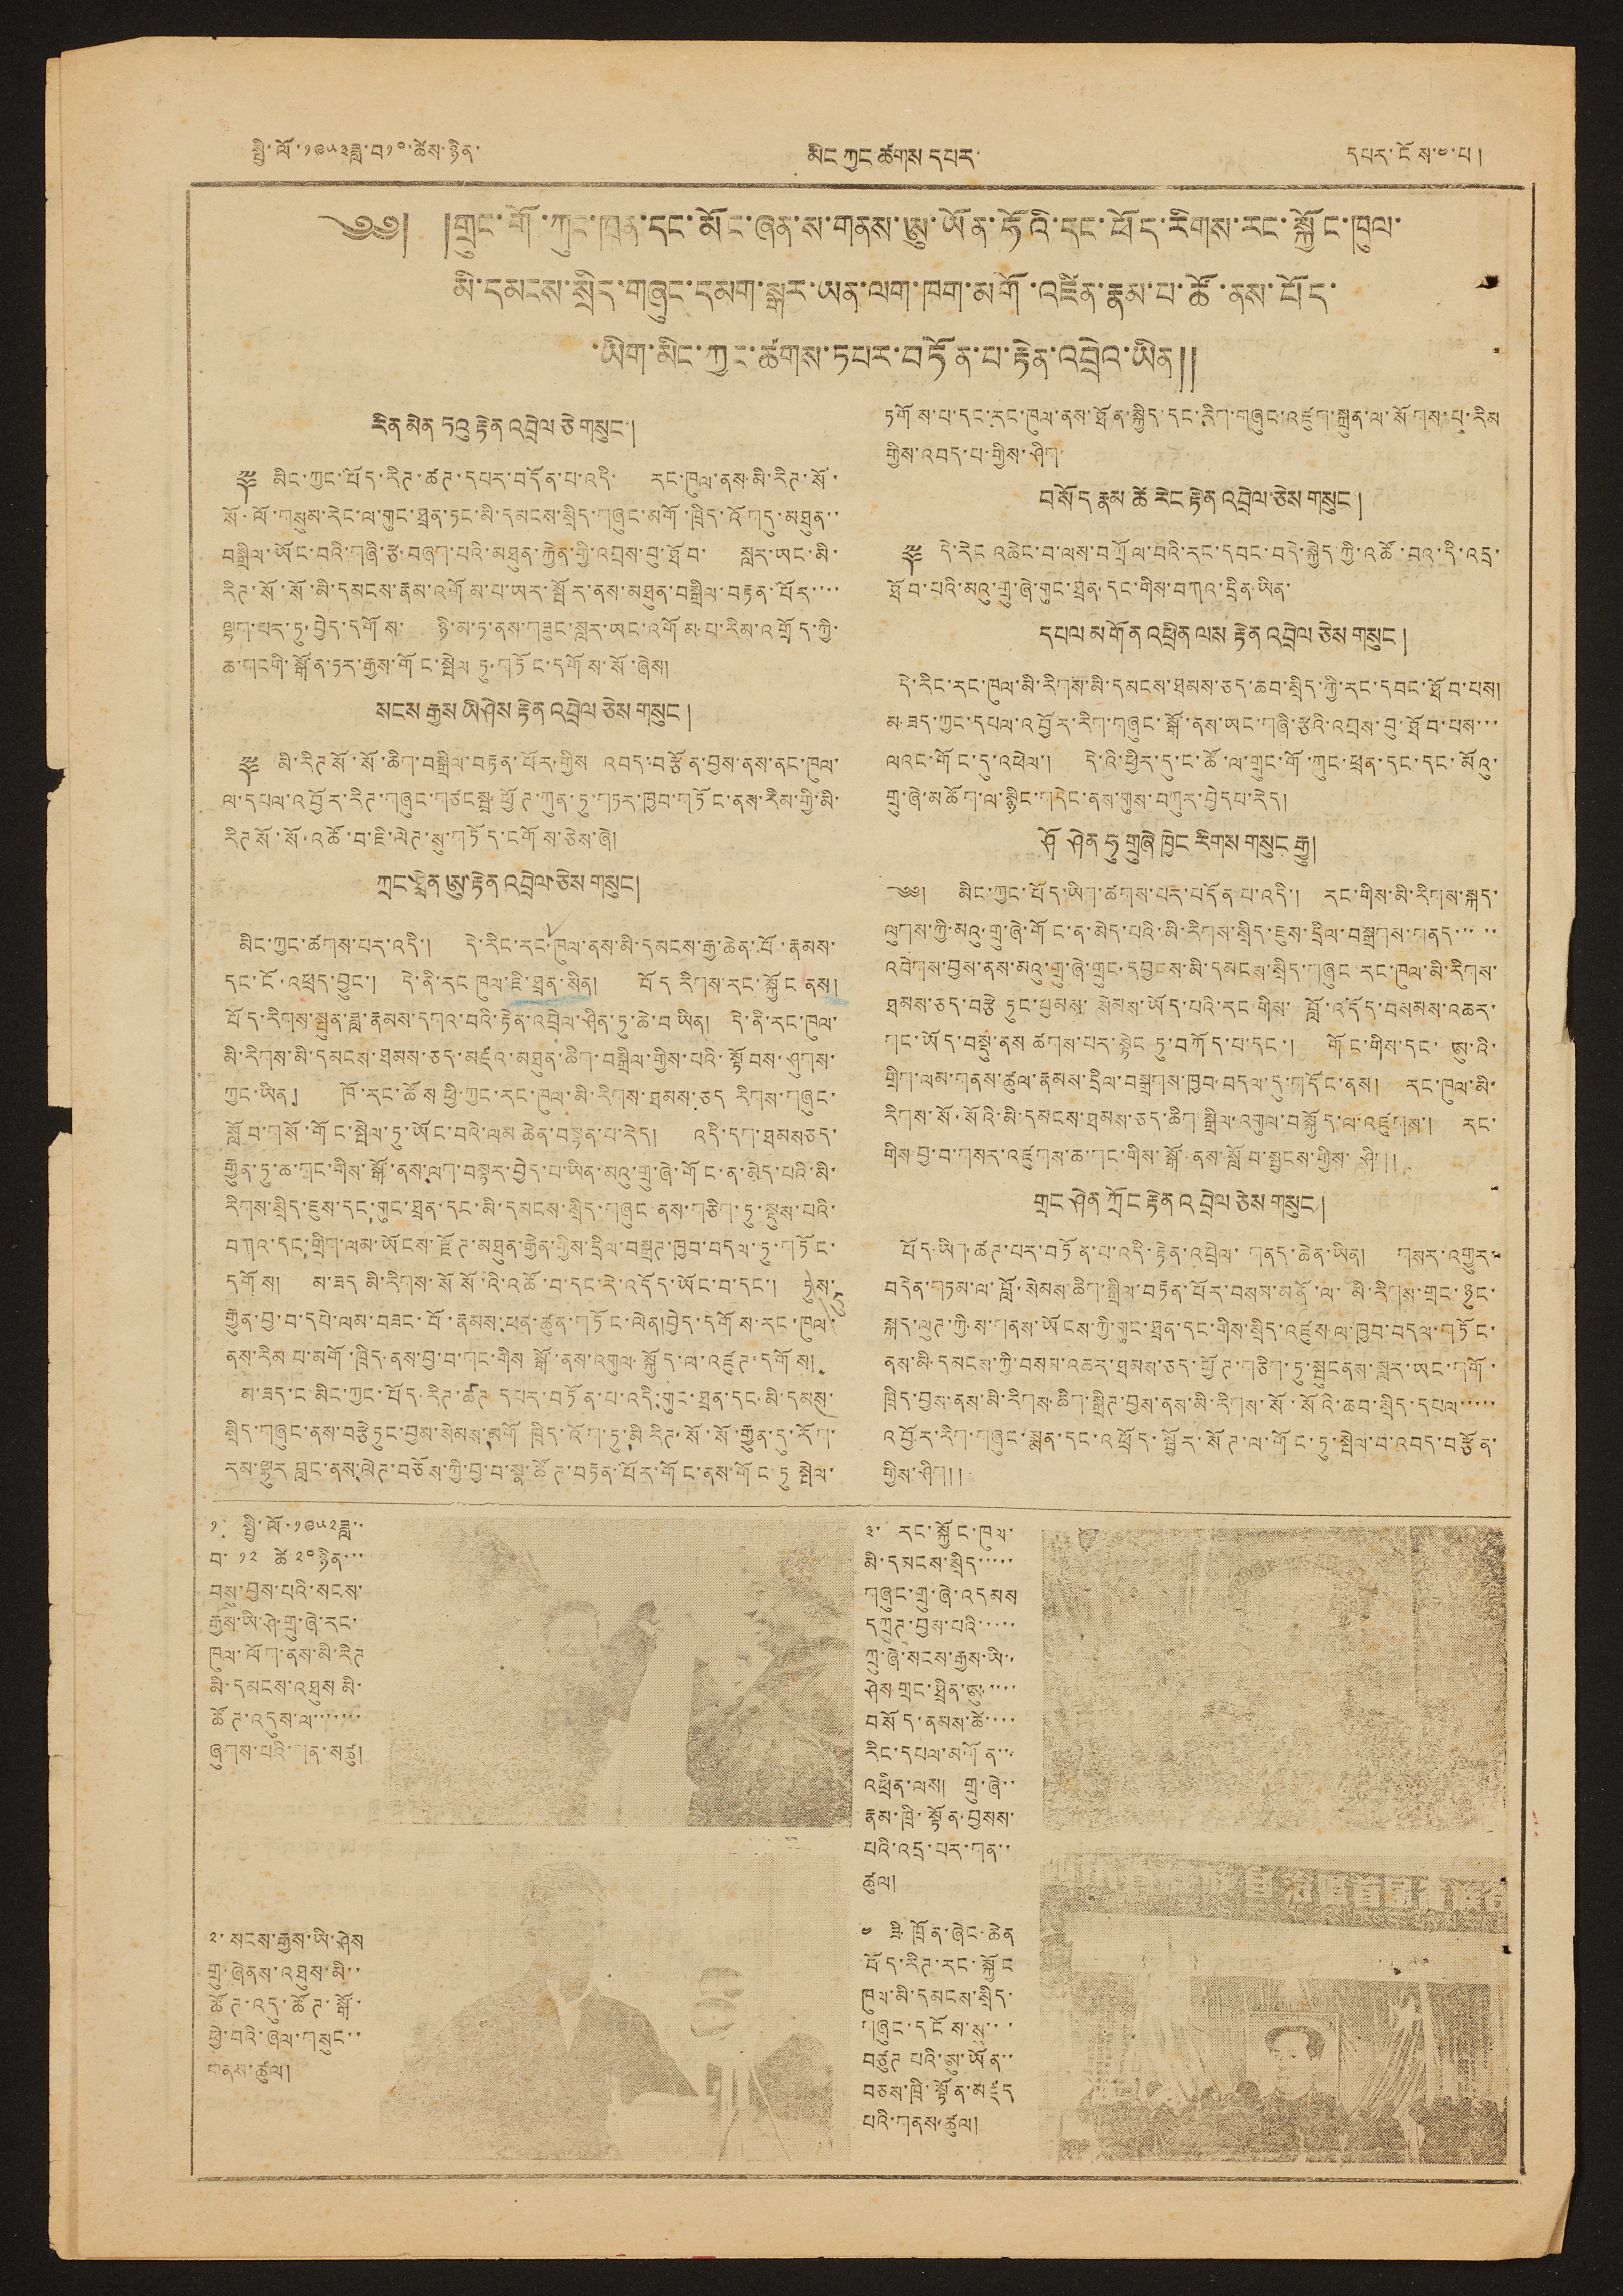སྤྱི་ལོ་༡༩༥༣ཟླ་བ༡༠་ཚེས་ཉིན་ མིང ཀྱང ཚགས དཔར་ དཔར་ངོས་༤་པ །
༄༅། །གྲུང་གོ་ཀུང་ཁྲན་དང་མོང་ཞན་ས་གནས་ཨུ་ཡོན་ཧོའི་དང་ཕོད་རིགས་རང་སྐྱོང་ཁུལ་
མི་དམངས་སྲིད་གཞུང་དམག་སྒར་ཡན་ལག་ཁག་མགོ་འཛིན་རྣམ་པ་ཚོ་ནས་པོད་
་ཡིག་མིང་ཀྱང་ཚགས་ཏཔར་བཏོན་པ་རྟེན་འབྲེའ་ཡིན༎
རེན མེན ཏའུ རྟེན འབྲེལ ཅེ གསུང་།
༈ མིང་ཀྱང་པོད་རིཊ་ཚཊ་དཔར་བདོན་པ་འིད་ རང་ཁུལ་ནས་མི་རིཊ་སོ་
སོ་ལོ་གསུམ་རེང་ལ་གུང་ཐྲན་ཏང་མི་དམངས་སྲིད་གཞུང་མགོ་ཁྲིད་འོགདུ་མཐུན་་
བསྒྲིལ་ཡོང་བའི་གཞི་རྩ་བཞག་པའི་མཐུན་རྐྱེན་གྱི་འབྲས་བུ་ཐོབ་ སླར་ཡང་མི་
རིཊ་སོ་སོ་མི་དམངས་རྣམ་འགོམ་པ་ཡར་སྤོར་ནས་མཐུན་བསྒྲིལ་བརྟན་པོར་་་་
ལྷག་པར་ཏུ་བྱེད་དགོས་ ཉི་མ་ཏ་ནས་གཞུང་སླར་ཡང་འགོམ་པ་རིམ་འགྲོད་ཀྱི་
ཆ་གངགི་སྒོན་ཏར་རྒྱས་གོང་སྤེལ ཏུ་གཏོང་དགོས་སོ་ཞེས།
སངས རྒྱས ཡི ཤེས རྟེན འབྲེལ ཅེས གསུང །
༈ མི་རིཊ སོ་སོ་ཆིག་བསྒྲིལ་བརྟན་པོར་གྱིས འབད་བརྩོན་བྱས་ནས་ནང་ཁུལ་
ལ་དཔལ་འབྱོར་རིཊ་གཞུང་གཙངསྤྲ་ཕྱོཊ་ཀུན་ཏུ་གཏར་ཁྱབ་གཏོང་ནས་རིམ་གྱི་མི་
རིཊ སོ་སོ་འཚོ་བ་ཇི་ལེཊ་སུ་གཏོད་ངགོས་ཅེས་ཞེ།
ཀྲང་ཐྲིན ཨུ་རྟེན འབྲེལ་ཅེས གསུང།
མིང་ཀྱང་ཚགས་པར་འདི་། དེ་རིང་རང་ཁུལ་ནས་མི་དམངས་རྒྱ་ཆེན་པོ་རྣམས་
དང་ངོ་འཕྲད་བྱུང་། དེ་ནི་རང ཁུལ་ཇི་ཐྲན་སིན། བོད རིགས་རང་སྐྱོང ནས།
བོད་རིགས་སྤུན་ཟླ་རྣམས་དགའ་བའི་རྟེན་འབྲེལ་ཤིན་ཏུ་ཆེ་བ ཡིན། དེ་ནི་རང་ཁུལ་
མི་རིགས་མི་དམངས་ཐམས་ཅད་མཛའ་མཐུན་ཆིག་བསྒྲིལ་གྱིས་པའི་སྟོབས་ཤུགས་
ཀྱང་ཡིན། ཁོ་རང་ཚོས ཕྱི་ཀྱང་རང་ཁུལ་མི་རིགས་ཐམས་ཅད རིགས་གཞུང་
སློབ་གསོ་གོང་སྤེལ་ཏུ་ཡོང་བའི་ལམ ཆེན་བསྟན་པ་རེད། འདི་དག་ཐམསཅད་
རྒྱུན་ཏུ་ཆ་གང་གིས་སྒོ་ནག་ལག་བསྟར་བྱེད་པ་ཡིན་མའུ་གྲུ་ཞེ་གོང་ན་མེད་པའི་མི་
རིགས་སྲིད་ཇུས་དང་གུང་ཐྲན་དང་མི་དམངས་སྲིད་གཞུང ནས་གཅིག་ཏུ་སྡུས་པའི་
བཀའ་དང་གྲིག་ལམ་ཡོངས་རྫོཊ་མཐུན་རྒྱེན་གྱིས་དྲིལ་བསྐྲཊ་ཁྱབ་བདལ་ཏུ་གཏོང་
དགོས། མ་ཟད མི་རིགས་སོ སོ་འི་འཚོ་བ་དང་རེ་འདོད་ཡོང་བ་དང་། ཏུས་
རྒྱུན་བྱ་བ་དཔེ་ལམ་བཟང་པོ་རྣམས་ཕན་ཚུན་གཏོང་ལེན།བྱེད་དགོས་རང་ཁུལ་
ནས་རིམ པ་མགོ་ཁྲིད་ནས་བྱ་བ་གང་གིས སྒོ་ནས་འགུལ་སྐྱོད་ལ་འཛུཊ་དགོས།
མ་ཟད་ང་མིང་ཀྱང་བོད་རིཊ་ཚཊ དཔར་བཏོན་པ་འདི་གུང་ཐྲན་དང་མི་དམས
སྲིད་གཞུང་ནས་བརྩེ ཏུང་བྱམ་སེམས་མགོ ཁྲིད་འོག་ཏུ་མི རིཊ་སོ་སོ་རྒྱུན་དུ་རོག་
རམ་ལྷུར བླང་ནས་ལེཊ་བཅོས་ཀྱི་བྱ་བ་སྣ་ཚོཊ་བརྟན་པོར་གོང་ནས་གོང་ཏུ སྤེལ་
ཏགོས་པ་དང་རང་ཁུལ་ནས་ཐོན་སྐྱེད་དང་རིག་གཞུང་འཛུག་སྐྲུན་ལ་སོགས་པ་རིམ
གྱིས་འབད་པ་གྱིས་ཤིག
བསོད རྣམ ཚེ རེང རྟེན འབྲེལ་ཅེས གསུང།
༈ དེ་རེང འཆེང་བ་ལས་བཀྲོལ་བའི་རང་དབང་བདེ་སྐྱེད་ཀྱི་འཚོ་བའ་དི་འདྲ་
ཐོབ་པའི་མའུ་གྲུ་ཞེ་གུང་ཐྲན་དང་གིས་བཀའ་དྲིན་ཡིན་
དཔལ མགོན འཕྲིན ལས རྟེན འབྲེལ ཅེས གསུང །
དེ་རིང་རང་ཁུལ་མི་རིགས་མི་དམངས་ཐམས་ཅད་ཆབ་སྲིད་ཀྱི་རང་དབང་ཐོབ་པས།
མ་ཟད་ཀྱང་དཔལ་འབྱོར་རིག་གཞུང་སྒོ་ནས་ཡང་གཞི་རྩའི་འབྲས་བུ་ཐོབ་པས་་་
ལའང་གོང་དུ་འཕེལ་། དེ་འི་ཕྱིར་དུ་ང་ཚོ་ལ་གྲུང་གོ་ཀུང་ཕྲན་དང་དང་མོའུ་
གྲུ་ཞེ་མཆོག་ལ་སྙིང་གདེང་ནས་གུས་བཀུར་བྱེདཔ་རེད།
ཤོ ཤེན ཧུ གྲུཞེ ཁྱེང རིགས གསུང རྒྱུ།
༄༅། མིང་ཀྱང་བོད་ཡིག་ཚགས་པར་བདོན པ་འདི་། རང་གིས་མི་རིགས་སྐད་
ལུགས་ཀྱི་མའུ་གྲུ་ཞེ་གོང་ན་མེད་པའི་མི་རིགས་སྲིད་ཇུས་དྲིལ་བསྒྲགས་གནད་་་་་
འབེགས་བྱས་ནས་མའུ་གྲུ་ཞེ་གྲུང་དབྱངས་མི་དམངས་སྲིད་གཞུང་རང་ཁུལ་མི་རིགས་
ཐམས་ཅད་བརྩེ ཏུང་བྱམས་སེམས་ཡོད་པའི་རང་གིས་ བློ་འདོད་བསམས་འཆར་
གང་ཡོད་བསྡུ་ནས ཚགས་པར་སྟེང ཏུ་བཀོད་པ་དང་། གོང་གིས་དང་ ཨུ་འི་
གྲིག་ལམ་གནས་ཚུལ་རྣམས་དྲིལ་བསྒྲགས་ཁྱབ་བདལ་དུ་གདོང་ནས། རང་ཁུལ་མི་
རིགས་སོ་སོའི་མི་དམངས་ཐམས་ཅད་ཆིག་སྒྲིལ་འགུལ་བསྐྱོད་ལ་འཛུགས་། རང་
གིས་བྱ་བ་གསར་འཛུགས་ཆ་གང་གིས་སྒོ་ནས་སློབ་སྦྱངས་གྱིས་ཤིག།།
གྲངས ཤེན ཀྲོང རྟེན འབྲེལ ཅེས གསུང །
བོད་ཡིག་ཚཊ་པར་བཏོན་པ་འདི་རྟེན་འབྲེལ་ གནད་ཆེན་ཡིན། གསར་འགྱུར་
བདེན་གཏམ་ལ་བློ་སེམས་ཆིག་སྐྲིལ་བརྟན་པོར་བསམ་མནོ་ལ་མི་རིགས་གྲངས་ཉུང་
སྐད་ལུཊ་ཀྱི་ས་གནས་ཡོངས་ཀྱི་གུང་ཐྲན་དང་གིས་སྲིད་འཛུས་ལ་ཁྱབ་བདལ་གཏོང་
ནས་མི་དམངས་ཀྱི་བསམ་འཆར་ཐམས་ཅད་ཕྱོཊ་གཅིག་ཏུ་སྤུངནས་སླར་ཡང་གགོ་
ཁྲིད་བྱས་ནས་མི་རིགས་ཆིག་སྒྲིཊ་བྱས་ནས་མི་རིགས་སོ་སོའི་ཆབ་སྲིད་དཔལ་་་་་
འབྱོར་རིག་གཞུང་སྨན་དང་འཕྲོད་སྦྱོར་སོཊ་ལ་གོང་ཏུ་སྤེལ་བ་འབད་བརྩོན་
གྱིས་ཤིག༎
༡་ སྤྱི་ལོ་༡༩༥༢ཟླ་་
བ་ ༡༢ ཚེ ༢༠ ཉིན་་་
བསུ་བྱས་པའི་སངས་
རྒྱས་ཡི་ཤེ་གྲུ་ཞེ་རང་
ཁུལ་ལོག་ནས་མི་རིཊ་
མི་དམངས་འཐུས་མི་
ཚོཊ་འདུས་ལ་་་་་་་
ཞུགས་པའི་གན་སཚུ།
༢་ སངས་རྒྱས་ཡི་ཤེས
གྲུ་ཞེནས་འཐུས་མི་་
ཚོཊ་འདུ་ཚོཊ་སྒོ་
ཕྱེ་བའི་ཞལ་གསུང་་
གནས་ཚུལ།
༣་ རང་སྐྱོང་ཁུལ་
མི་དམངས་སྲིད་་་་་
གཞུང་གྲུ་ཞེ་འདམས
དཀྲུཊ་བྱས་པའི་་་་་
ཀྲུ་ཞེ་སངས་རྒྱས་ཡི་་
ཤེས གྲང་ཐྲིན་ཨུ་་་་་
བསོད་ནམས་ཚེ་་་་
རིང་དཔལ་མགོན་་་
འཕྲིན་ལས། གྲུ་ཞེ་་
རྣམ་ཁྲི་སྟོན་བྱསས་
པའི་འདྲ་པར་གན་་་
ཚུལ།
༤ ཟི་ཁྲོན་ཞེང་ཆེན
བོད་རིཊ་རང་སྐྱོང
ཁུལ་མི་དམངས་སྲིད་
གཞུང་དངོས་སུ་་་
བཙུཊ པའི་ཨུ་ཡོན་་
བཅས་ཁྲི་སྟོན་མཛད
པའི་གནས་ཚུལ།
